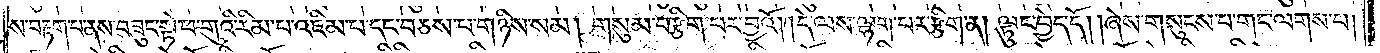ས་བརྟག་པ་ནས་བཟུང་སྟེ་ཕ་གུའི་རིམ་པ་འཇིམ་པ་དང་བཅས་པ་གཉིས་སམ། གསུམ་བརྩིག་པར་བྱའོ། །དེ་ལས་ལྷག་པར་རྩིག་ན། ལྟུང་བྱེད་དོ། །ཞེས་གསུངས་པ་གང་ལགས་པ།
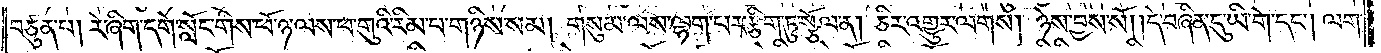བཙུན་པ། རེ་ཞིག་དགེ་སློང་གིས་ཕོ་ཉ་ལས་ཕ་གུའི་རིམ་པ་གཉིས་སམ། གསུམ་ལས་ལྷག་པར་རྩིག་ཏུ་སྩོལ་ན། ཅིར་འགྱུར་ལགས། ཉེས་བྱས་སོ། །དེ་བཞིན་དུ་ཡི་གེ་དང༌། ལག་
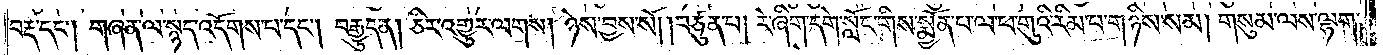བརྡ་དང༌། གཞན་ལ་སྙད་འདོགས་པ་དང༌། བརྒྱུད་ན། ཅིར་འགྱུར་ལགས། ཉེས་བྱས་སོ། །བཙུན་པ། རེ་ཞིག་དགེ་སློང་གིས་སྨྱོན་པ་ལ་ཕ་གུའི་རིམ་པ་གཉིས་སམ། གསུམ་ལས་ལྷག་
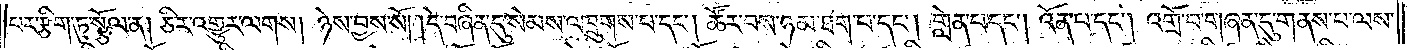པར་རྩིག་ཏུ་སྩོལ་ན། ཅིར་འགྱུར་ལགས། །ཉེས་བྱས་སོ། །དེ་བཞིན་དུ་སེམས་འཁྲུགས་པ་དང༌། ཚོར་བས་ཉམ་ཐག་པ་དང༌། གླེན་པ་དང༌། འོན་པ་དང༌། འགྲོ་བ་གཞན་དུ་གནས་པ་ལས་
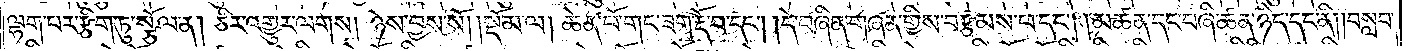ལྷག་པར་རྩིག་ཏུ་སྩོལ་ན། ཅིར་འགྱུར་ལགས། ཉེས་བྱས་སོ། །སྡོམ་ལ། ཆེན་པོ་གང་ཟག་རྡོ་བ་དང༌། །དེ་བཞིན་གཞན་གྱིས་བརྩམས་པ་དང༌། །མཚན་དང་བཞི་ཚན་ཉིད་དང་ནི། །བསླབ་
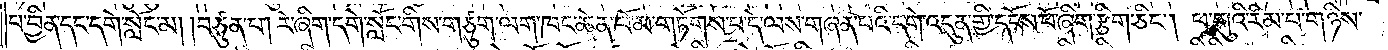པ་བྱིན་དང་དགེ་སློང་མ། །བཙུན་པ། རེ་ཞིག་དགེ་སློང་གིས་གཙུག་ལག་ཁང་ཆེན་པོ་མ་གཏོགས་པ་དེ་ལས་གཞན་པའི་དགེ་འདུན་གྱི་དངོས་པོ་ཞིག་རྩིག་ཅིང༌། ཕ་གུའི་རིམ་པ་གཉིས་
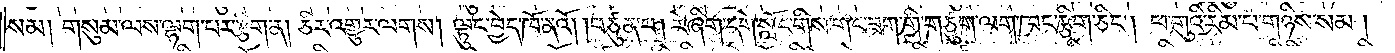སམ། གསུམ་ལས་ལྷག་པར་རྩིག་ན། ཅིར་འགྱུར་ལགས། ལྟུང་བྱེད་ཁོ་ནའོ། །བཙུན་པ། རེ་ཞིག་དགེ་སློང་གིས་གང་ཟག་གི་གཙུག་ལག་ཁང་རྩིག་ཅིང༌། ཕ་གུའི་རིམ་པ་གཉིས་སམ།
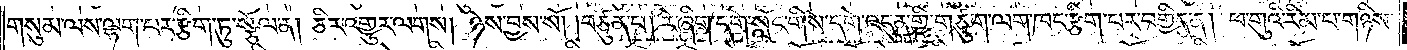གསུམ་ལས་ལྷག་པར་རྩིག་ཏུ་སྩོལ་ན། ཅིར་འགྱུར་ལགས། ཉེས་བྱས་སོ། །བཙུན་པ། རེ་ཞིག་དགེ་སློང་གིས་དགེ་འདུན་གྱི་གཙུག་ལག་ཁང་རྩིག་པར་བགྱིད་ན། ཕ་གུའི་རིམ་པ་གཉིས་
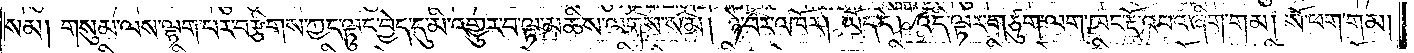སམ། གསུམ་ལས་ལྷག་པར་བརྩིགས་ཀྱང་ལྟུང་བྱེད་དུ་མི་འགྱུར་བ་ལྟ་མཆིས་ལགས་སམ། ཉེ་བར་འཁོར། ཡོད་དེ། འདི་ལྟར་གཙུག་ལག་ཁང་རྡོ་འབའ་ཞིག་གམ། སོ་ཕག་གམ།
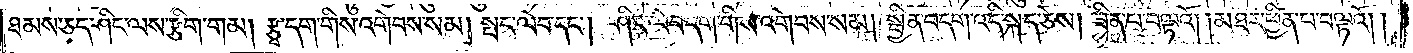ཐམས་ཅད་ཤིང་ལས་རྩིག་གམ། རྩྭ་དག་གིས་འགེབས་སམ། སྤང་ལེབ་དང༌། ཤིང་ལེབ་དག་གིས་འགེབས་སམ། སྦྱིན་བདག་འདི་སྐད་ཅེས། ཟིན་པ་བལྟའོ། །མཐར་ཕྱིན་པ་བལྟའོ། །
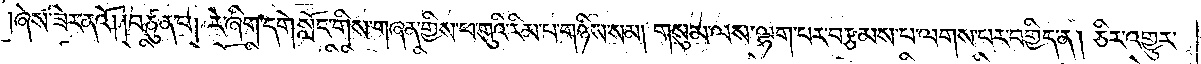།ཞེས་ཟེར་ནའོ། །བཙུན་པ། རེ་ཞིག་དགེ་སློང་གིས་གཞན་གྱིས་ཕ་གུའི་རིམ་པ་གཉིས་སམ། གསུམ་ལས་ལྷག་པར་བརྩམས་པ་ལགས་པར་བགྱིད་ན། ཅིར་འགྱུར་
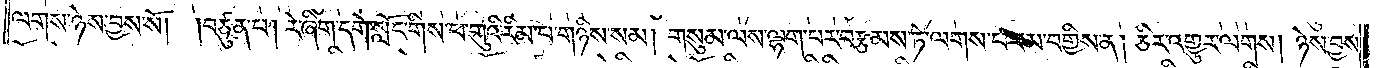ལགས་ཉེས་བྱས་སོ། །བཙུན་པ། རེ་ཞིག་དགེ་སློང་གིས་ཕ་གུའི་རིམ་པ་གཉིས་སམ། གསུམ་ལས་ལྷག་པར་བརྩམས་ཏེ་ལགས་པར་མ་བགྱིས་ན། ཅིར་འགྱུར་ལགས། ཉེས་བྱས་
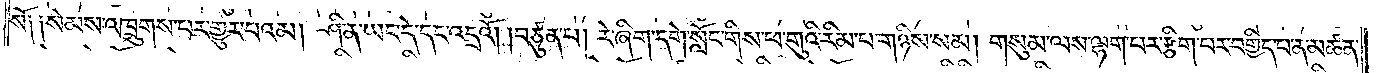སོ༑ ༑སེམས་འཁྲུགས་པར་གྱུར་པའམ། ཤི་ན་ཡང་དེ་དང་འདྲའོ། །བཙུན་པ། རེ་ཞིག་དགེ་སློང་གིས་ཕ་གུའི་རིམ་པ་གཉིས་སམ། གསུམ་ལས་ལྷག་པར་རྩིག་པར་བགྱིད་པ་ན་མཚན་
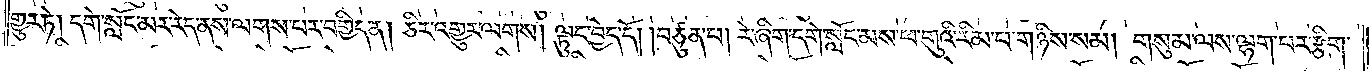གྱུར་ཏེ། དགེ་སློང་མར་རེད་ནས་ལགས་པར་བགྱིད་ན། ཅིར་འགྱུར་ལགས། ལྟུང་བྱེད་དོ། །བཙུན་པ། རེ་ཞིག་དགེ་སློང་མས་ཕ་གུའི་རིམ་པ་གཉིས་སམ། གསུམ་ལས་ལྷག་པར་རྩིག་
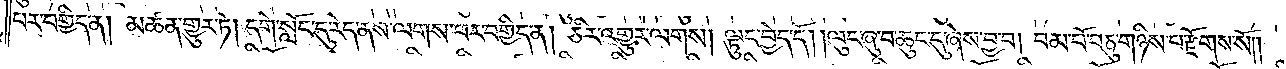པར་བགྱིད་ན། མཚན་གྱུར་ཏེ། དགེ་སློང་དུ་རེད་ནས་ལགས་པར་བགྱིད་ན། ཅིར་འགྱུར་ལགས། ལྟུང་བྱེད་དོ། །ལུང་ཞུ་བ་ཆུང་ངུ་ཞེས་བྱ་བ། བམ་པོ་བཅུ་གཉིས་པ་རྫོགས་སོ༎
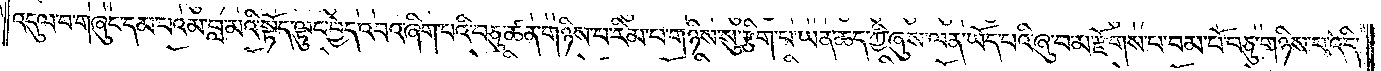འདུལ་བ་གཞུང་དམ་པའམ་བླ་མའི་སྟོད་ལྟུང་བྱེད་འབའ་ཞིག་པའི་བཅུ་ཚན་གཉིས་པ་རིམ་པ་གཉིས་སུ་རྩིག་པ་ཡན་ཆད་ཀྱི་ཞུས་ལན་ཡོད་པའི་ཞུ་བ་མ་རྫོགས་པ་བམ་པོ་བཅུ་གཉིས་པ་འདི་
